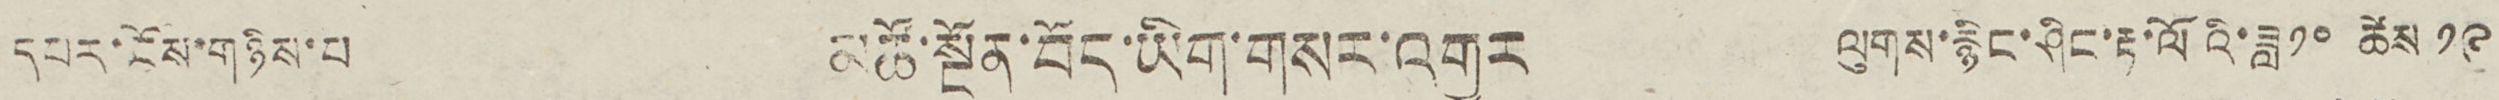དཔར་ངོས་གཉིས་པ མཚོ་སྔོན་བོད་ཡིག་གསར་འགྱུར ལུགས་རྙིང་ཤིང་རྟ་ལོའི་ཟླ༡༠ ཚེས ༡༩
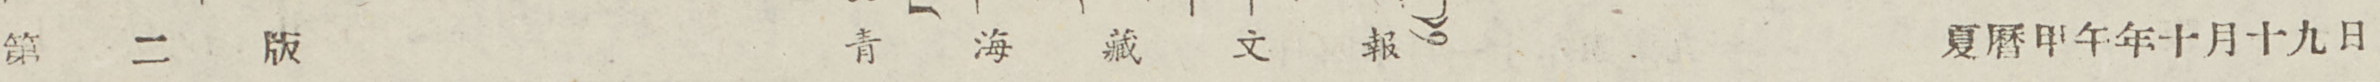第 二 版 青 海 藏 文 報 夏曆甲午年十月十九日
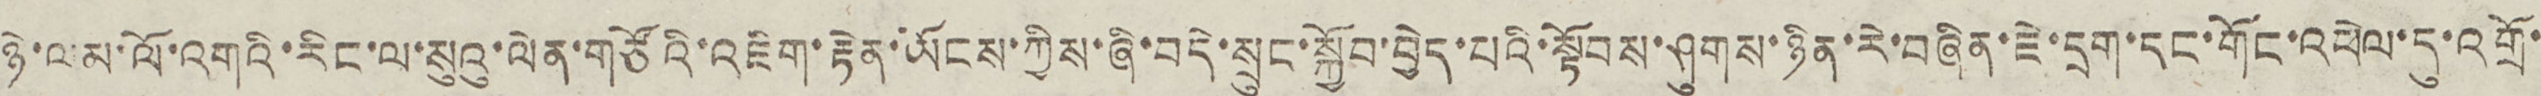ཉེ་ལམ་ལོ་འགའི་རིང་ལ་སུའུ་ལེན་གཙོའི་འཇིག་རྟེན་ཡོངས་ཀྱིས་ཞི་བདེ་སྲུང་སྐྱོབ་བྱེད་པའི་སྟོབས་ཤུགས་ཉིན་རེ་བཞིན་ཇེ་དྲག་དང་གོང་འཕེལ་དུ་འགྲོ་
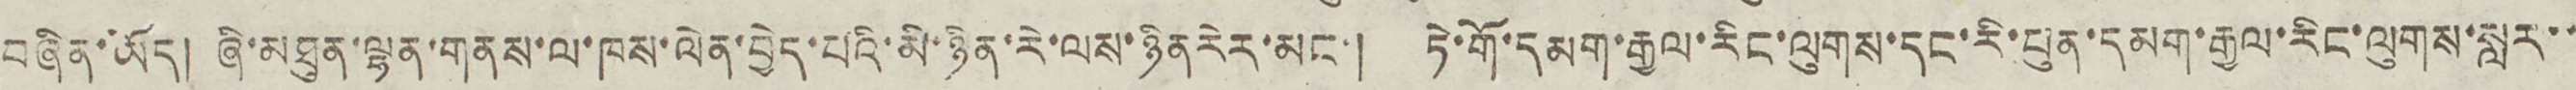བཞིན་ཡོད། ཞི་མཐུན་ལྷན་གནས་ལ་ཁས་ལེན་བྱེད་པའི་མི་ཉིན་རེ་ལས་ཉིན རེར་མང་། ཏེ་གོ་དམག་རྒྱལ་རིང་ལུགས་དང་རི་ཕུན་དམག་རྒྱལ་རིང་ལུགས་སླར་་
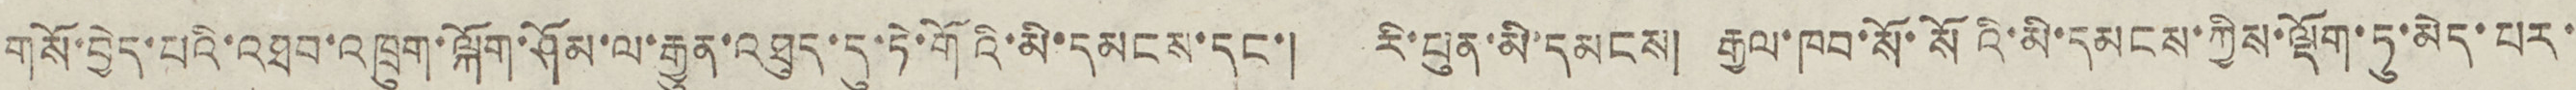གསོ་བྱེད་པའི་འཐབ་འཁྲུག་ལྐོག་ཤོམ་ལ་རྒྱུན་འཐུད་དུ་ཏེ་གོའི་མི་དམངས་དང་། རི་པུན་མི་དམངས། རྒྱལ་ཁབ་སོ་སོའི་མི་དམངས་ཀྱིས་ལྡོག་ཏུ་མེད་པར་
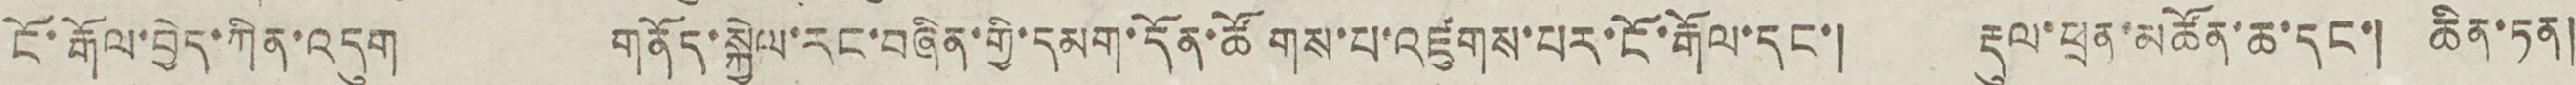ངོ་རྒོལ་བྱེད་ཀིན་འདུག གནོད་སྐྱེལ་རང་བཞིན་གྱི་དམག་དོན་ཚོགས་པ་འཛུགས་པར་ངོ་རྒོལ་དང་། རྡུལ་ཕྲན་མཚོན་ཆ་དང་། ཆིན་ཏན།
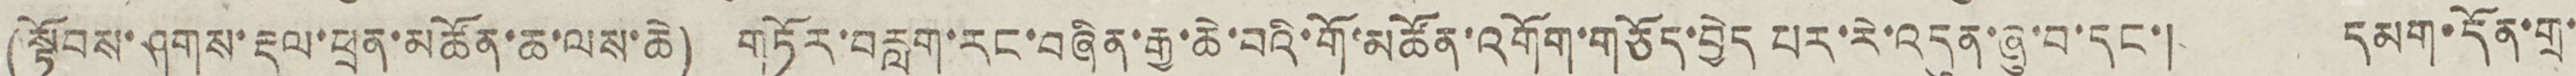(སྟོབས་ཤུགས་རྡུལ་ཕྲན་མཚོན་ཆ་ལས་ཆེ) གཏོར་བརླག་རང་བཞིན་རྒྱ་ཆེ་བའི་གོ་མཚོན་འགོག་གཅོད་བྱེད པར་རེ་འདུན་ཞུ་བ་དང་། དམག་དོན་གྲ་
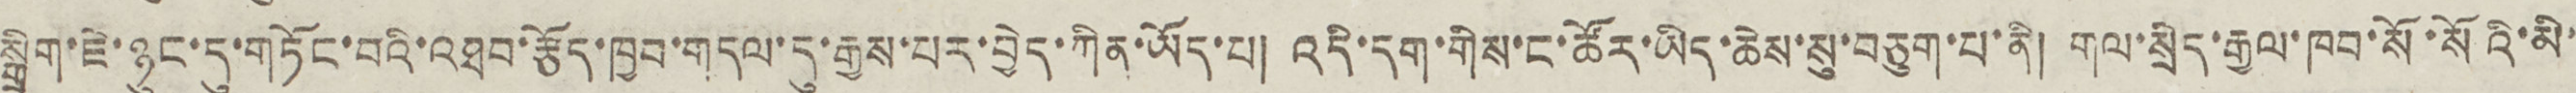སྒྲིག་ཇེ་ཉུང་དུ་གཏོང་བའི་འཐབ་རྩོད་ཁྱབ་གདལ་དུ་རྒྱས་པར་བྱེད་ཀིན་ཡོད་པ། འདི་དག་གིས་ང་ཚོར་ཡོད་ཆེས་སུ་བཅུག་པ་ནི། གལ་སྲིད་རྒྱལ་ཁབ་སོ་སོའི་མི་
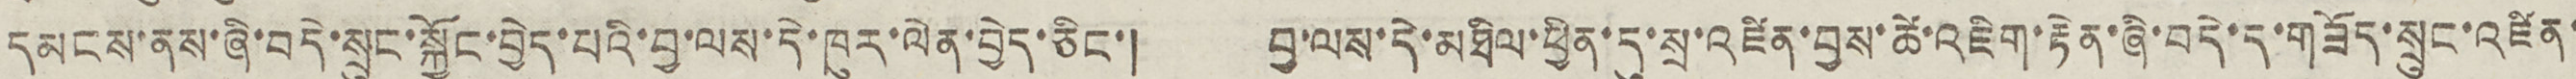དམངས་ནས་ཞི་བདེ་སྲུང་སྐྱོང་བྱེད་པའི་བྱ་ལས་དེ་ཁུར་ལེན་བྱེད་ཅིང་། བྱ་ལས་དེ་མཐོལ་ཕྱིན་དུ་སྲ་འཛིན་བྱས་ཚེ་འཇིག་རྟེན་ཞི་བདེ་ད་གཟོད་སྲུང་འཛིན་
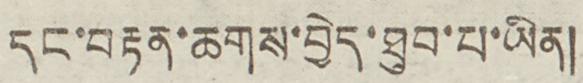དང་བརྟན་ཆགས་བྱེད་ཐུབ་པ་ཡིན།
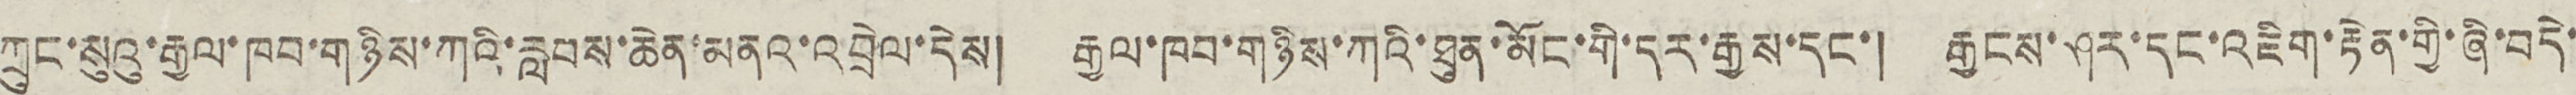ཀྲུང་སུའུ་རྒྱལ་ཁབ་གཉིས་ཀའི་རླབས་ཆེན་མནའ་འབྲེལ་དེས། རྒྱལ་ཁབ་གཉིས་ཀའི་ཐུན་མོང་གི་དར་རྒྱས་དང་། རྒྱངས་ཤར་དང་འཇིག་རྟེན་གྱི་ཞི་བདེ་
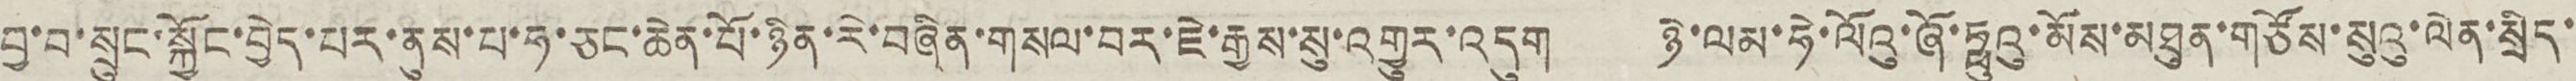བྱ་བ་སྲུང་སྐྱོང་བྱེད་པར་ནུས་པ་ཧ་ཅང་ཆེན་པོ་ཉིན་རེ་བཞིན་གསལ་བར་ཇེ་རྒྱས་སུ་འགྱུར་འདུག ཉི་ལམ་ཧེ་ལོའུ་ཞོ་ཧྥུའུ་མོས་མཐུན་གཙོས་སུའུ་ལེན་སྲིད་
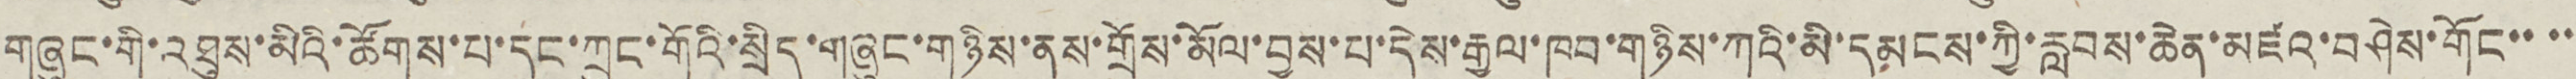གཞུང་གི་འཐུས་མིའི་ཚོགས་པ་དང་ཀྲུང་གོའི་སྲིད་གཞུང་གཉིས་ནས་གྲོས་མོལ་བྱས་པ་དེས་རྒྱལ་ཁབ་གཉིས་ཀའི་མི་དམངས་ཀྱི་རླབས་ཆེན་མཛའ་བཤེས་གོང་་་་
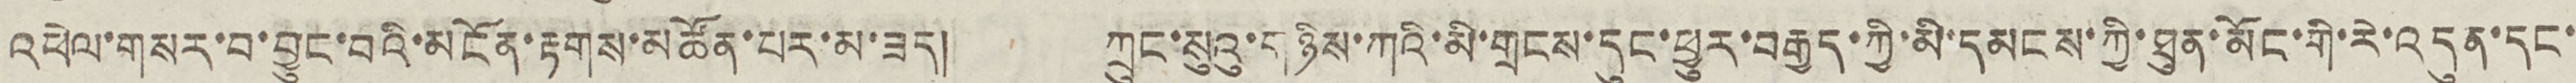འཕེལ་གསར་བ་བྱུང་བའི་མངོན་རྟགས་མཚོན་པར་མ་ཟད། ཀྲུང་སུའུ་གཉིས་ཀའི་མི་གྲངས་དུང་ཕྱུར་བརྒྱད་ཀྱི་མི་དམངས་ཀྱི་ཐུན་མོང་གི་རེ་འདུན་དང་
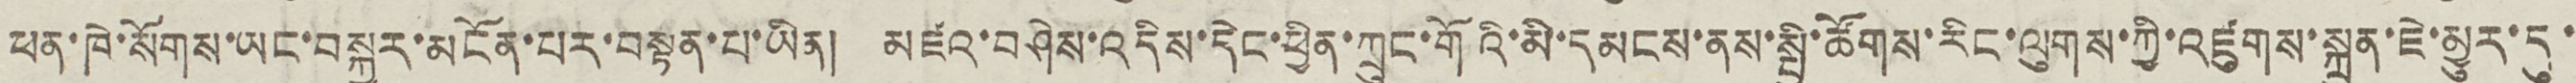ཕན་ཁེ་སོགས་ཡང་བསྐྱར་མངོན་པར་བསྟན་པ་ཡིན། མཛའ་བཤེས་འདིས་དེང་ཕྱིན་ཀྲུང་གོའི་མི་དམངས་ནས་སྤྱི་ཚོགས་རིང་ལུགས་ཀྱི་འཛུགས་སྐྲུན་ཇེ་མྱུར་དུ་
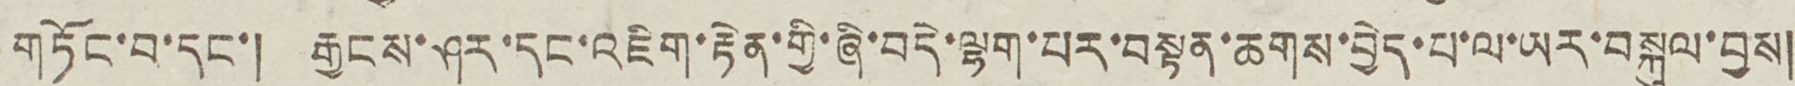གཏོང་བ་དང་། རྒྱངས་ཤར་དང་འཇིག་རྟེན་གྱི་ཞི་བདེ་ལྷག་པར་བསྟན་ཆགས་བྱེད་པ་ལ་ཡར་བསྐུལ་བྱས།
